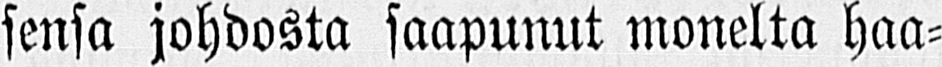sensa johdosta saapunut monelta haa-
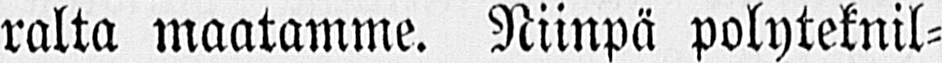ralta maatamme. Niinpä polyteknil-
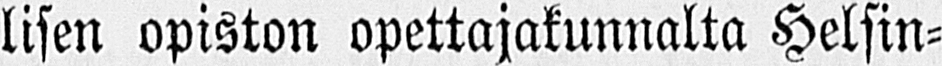lisen opiston opettajakunnalta Helsin-
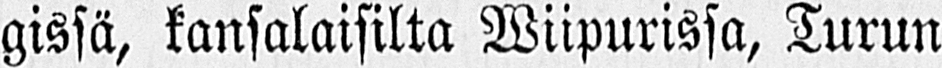gissä, kansalaisilta Wiipurissa, Turun
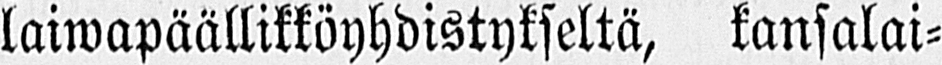laiwapäällikköyhdistykseltä, kansalai-
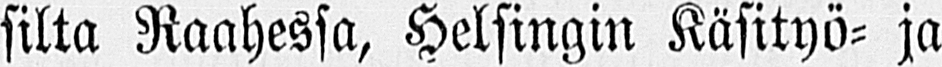silta Raahessa, Helsingin Käsityö- ja
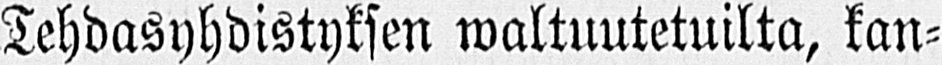Tehdasyhdistyksen waltuutetuilta, kan-
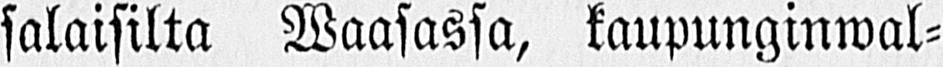salaisilta Waasassa, kaupunginwal-
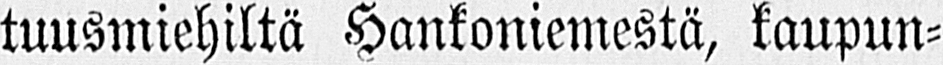tuusmiehiltä Hankoniemestä, kaupun-
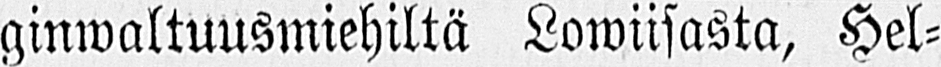ginwaltuusmiehiltä Lowiisasta, Hel-
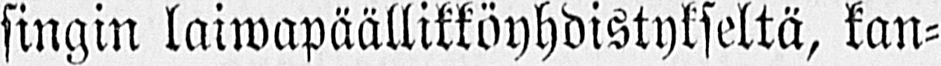singin laiwapäällikköyhdistykseltä, kan-
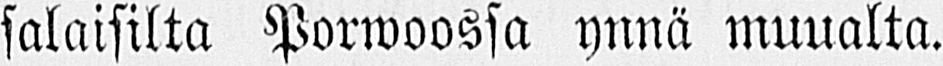salaisilta Porwoossa ynnä muualta.
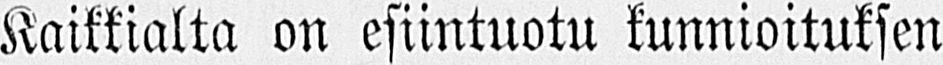Kaikkialta on esiintuotu kunnioituksen
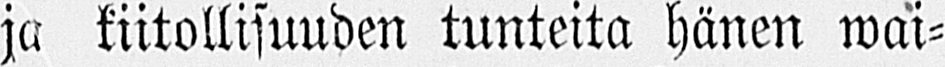ja kiitollisuuden tunteita hänen wai-
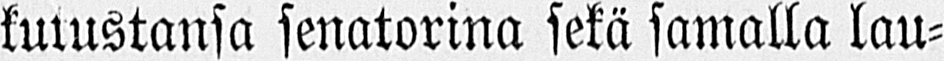kutustansa senatorina sekä samalla lau-
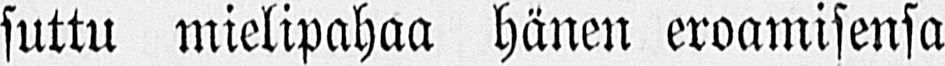suttu mielipahaa hänen eroamisensa
